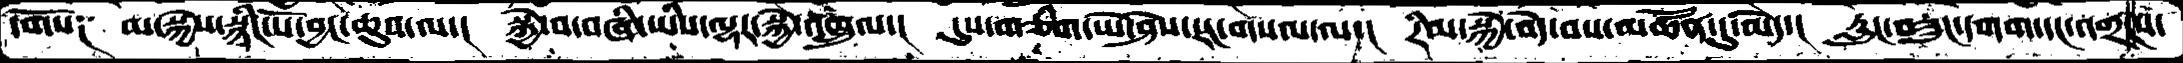དགོས༑   མ་སྐྱེས་སྙིང་པོ་བྱང་ཆུབ་ལ་།  སྐྱེ་བ་བཞི་ཡིས་ལྷར་སྐྱེ་འཁྲུལ་།  དུས་གཅིག་ཡེ་ཤེས་རང་གསལ་ལ་།  རིམ་སྐྱེ་བདེ་བས་མཚོན་དུ་མེད་།  རླུང་བཟུང་དགག་དང་འགྲངས་
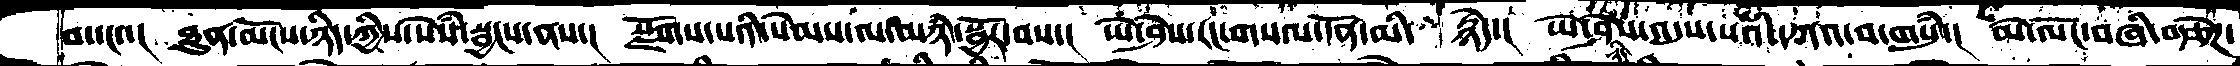བ་དང་་།   ཐུན་མོངས་ཉིད་ཀྱིས་སེཾས་སྦྱངས་ནས་།   སྫོགས་པའི་སེམས་ལ་མཉཾ་སྦྱོར་བས་།  ཡེ་ཤེས་རང་གསལ་དོན་མི་རྙེད་།  ཡེ་ཤེས་འདུས་པའི་དཀའ་བ་གསུཾ་།  མེ་ལོང་བཞི་བརྩེཌ་
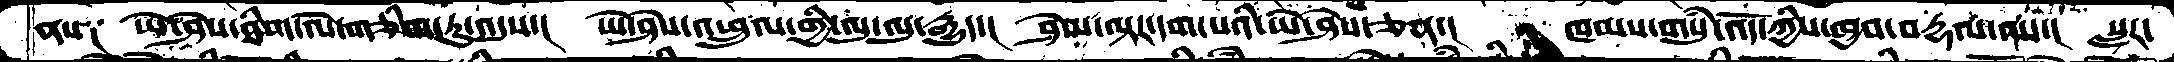ནས༑   ཡེ་ཤེས་ཐིག་ལེ་གཅིག་ཏུ་འདུས་།  ཡེ་ཤེས་འཕྲུལ་གྱི་ལུ་ལུ་རྒྱུད་།  ཤེལ་ལྟར་དག་པའི་ཡེ་ཤེས་ཅན་།  ཁམས་གསུཾ་འོད་ཀྱིས་ཁྱབ་བརྡལ་ནས་།  སླར་
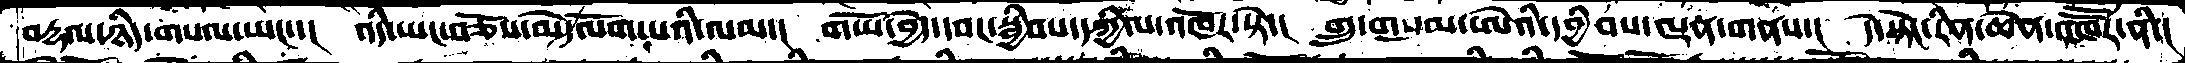བརྡལ་ཉིད་གསལ་ཡང་་།  འདི་ཡང་བཅོས་མེད་ལོག་པའི་ལམ་།  གཡོ་བྱེད་དབང་སྦྱིབས་དཀྱིལ་འཁོར་སྟེ་།  གྲུ་གསུམ་ཨེའི་དབྱིབས་ལྡན་གནས་།  དེ་སྟེང་རིན་ཆེན་འཁཽར་ནི་།
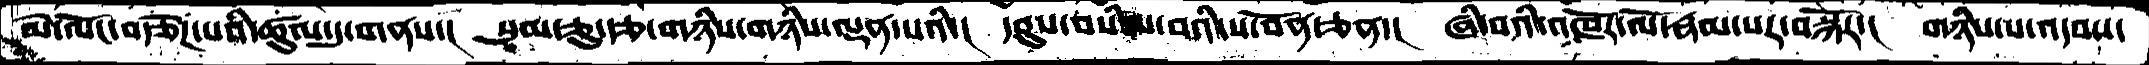མེ་ལོང་བརྩེཌ་པའི་ཚུལ་དུ་གནས་།  སུམ་ཅུ་རྩ་གཉིས་གཉིས་ལྡན་པའི་།   དབུས་བསིལ་བའི་ས་བོན་ཅན་།  ཞི་བའི་འཁོར་ལོ་རྣམ་པར་བསྐོར་།  གཉིས་པ་འདབས་
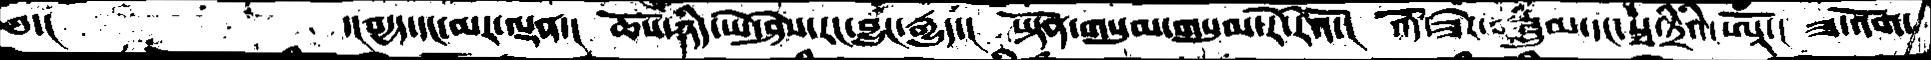༅་།            ་།བདྱད་དང་མར་ལྡན་།   ཆོས་ཉིད་ཡེ་ཤེས་རང་བྱུང་རྒྱུད་།  ཡྟོན་གསུམ་གསུམ་རེ་རེའོ་།  འོད་ཟེར་བཟླུམ་དང་སྭ་ཏྲིའི་ཨཱོཾ་།  ཟ་འོག་
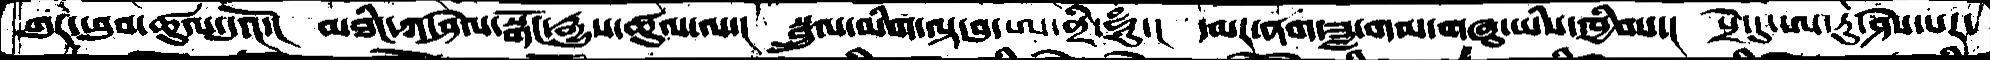གུར་ཕུབ་ཚུལ་དུའོ་།   མཐིང་ཀ་ཤེལ་སྒོང་རྒྱུས་ཚུལ་ལ་།  སྦྲུལ་མིག་ལྟ་བུ་ཨ་ནྲི་ཧཱུཾ་།   དམར་ནག་ཟླ་གམ་གཞུ་ཡིས་དབྱིབས་།  པྲེ་དུ་ཨ་རུ་ཤེས་པར་
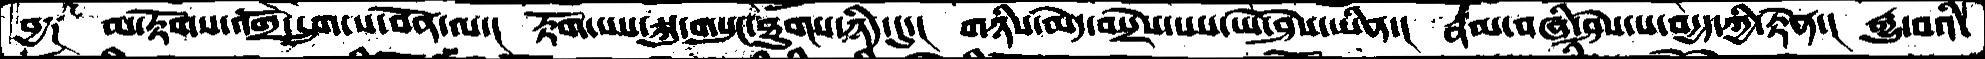བྱ༑   མ་རྟོགས་འགྲོ་དྲུག་ས་བོན་ལ་།  རྟོག་པས་སྐུ་གསུང་ཐུགས་ཉིད་དུ་།  གཉིས་མེད་བསྲེས་པས་ཡེ་ཤེས་ཡིན་།  རྣམ་བཞི་ཤེས་པ་བདྱད་ཀྱི་རྟེན་།  རྒྱུ་བའི་
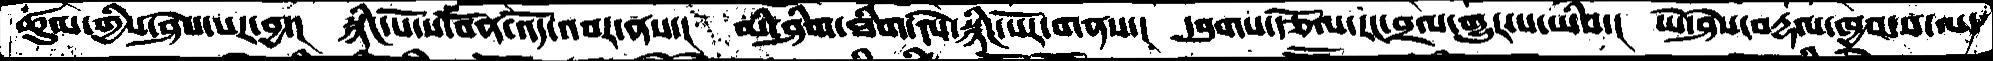ཚུལ་གྱིས་ཤེས་པར་བྱ་།  སྙིང་པོ་ས་བོན་འོད་འབར་ནས་།  མི་ཤིག་ཐིག་ལེ་སྙིང་པོར་གནས་།  དབུགས་རྩོལ་རང་བྲལ་གྱུར་པ་ཡིས་།  ཡེ་ཤེས་བརྡལ་ཁྱབ་པ་ལ་
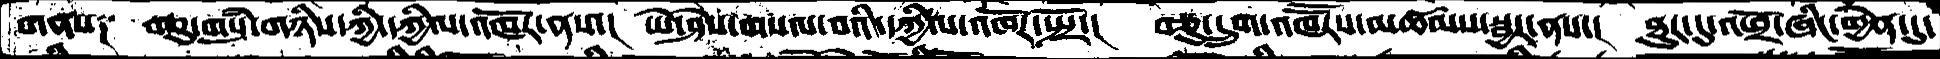གནས༑   བཅུ་གསུཾ་གཉིས་ཀྱི་དཀྱིལ་འཁོར་ནས་།  ཡེ་ཤེས་གསལ་བའི་དཀྱིལ་འཁོར་སྤྲོ་།   བཅུ་དྲུག་འཁཽརས་མཚམས་སྦྱར་ནས་།  ཐུར་དུ་འཕྲོ་ཞིང་གྱེན་དུ་
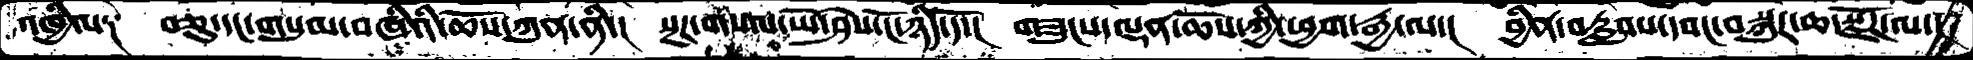འཁྱིལ༑   བཅུ་དང་གསུམ་བཞིའི་ཆོས་ཀུན་ནི་།  སྔཌ་གསལ་ཡེ་ཤེས་ངོ་ཉིད་དོ་།  གཟུངས་ལྡན་ཆོས་ཀྱི་ཕྱག་རྒྱ་ལ་།  བྱིན་བརླབས་དབང་བསྐུར་ཆ་སྫོཌ་ལ་།
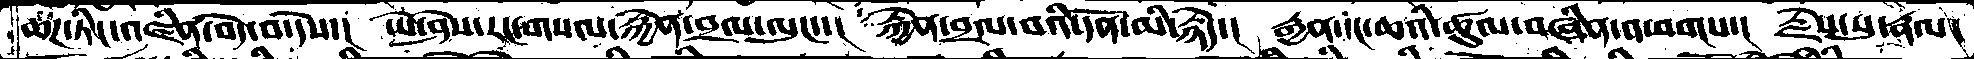ཆཌ་ཏིང་འཛིན་བདེ་བ་དེས་།   ཡེ་ཤེས་རང་གསལ་རྐྱེན་བྲལ་ལུང་།  རྐྱེན་བྲལ་བའི་དོན་མི་རྙེད་།  རྒྱན་དང་ཆའི་ཚུལ་བཞིན་འཕགས་།  རྗེས་སུ་རྣལ་
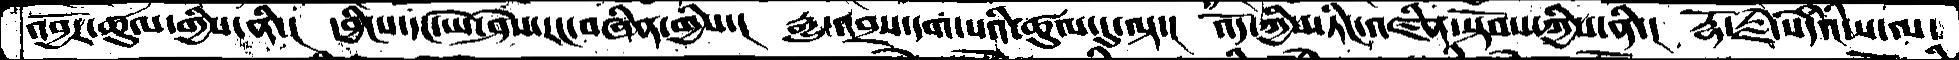འབྱོར་ཚུལ་གྱིས་ནི་།   དབྱིངས་དང་ཡེ་ཤེས་རང་བཞིན་གྱིས་།  རྒྱུ་འབྲས་དག་པའི་ཚུལ་དུ་ལྟ་།  འོད་ཀྱིས་ཏིང་འཛིན་སྟོབས་ཀྱིས་ནི་།  རྡོ་རྗེ་སེདཾའི་ས་ལ་
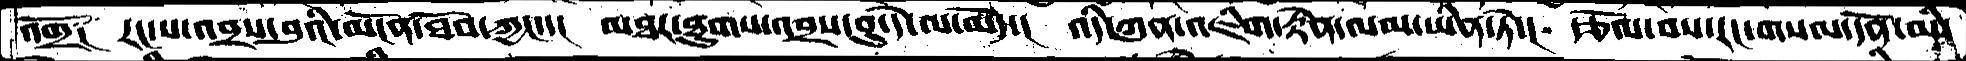འགྲོ༑  རང་ས་འབྲས་བུའི་མངོན་ཐོབ་ཀྱང་་།   མཐར་ཐུགས་འབྲས་བུ་དེ་ལ་མེད་།  འདི་ཀུན་འཇིག་རྟེན་ལམ་ཡིན་ཏེ་།  རྩོལ་བས་རང་གསལ་དོན་མི་
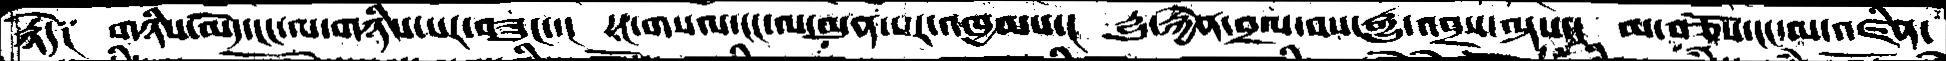རྙེད༑   གཉིས་མེད་ངང་ལ་གཉིས་པར་བཟུང་་།  རང་གསལ་ངང་ལ་མུན་པར་འཁྱམས་།  དྱུ་རྐྱེན་བྲལ་བས་རྒྱུ་འབྲས་ལྟས་།  མ་བཅོས་ངང་ལ་འཛིན་
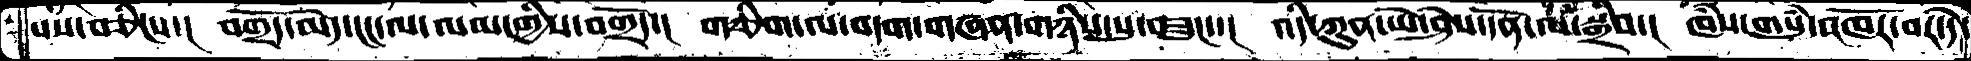པས་བཅིངས་།  བགྲོད་མེད་ངང་ལ་ལམ་གྱིས་བགྲོད་།   གཅིག་ལ་བདག་གཞན་གཉིས་སུ་བཟུང་་།  འདི་ཀུན་ཡེ་ཤེས་དོན་ལ་སྒྲིབ་།  ཁཾས་གསུཾ་འཁོར་བར་དེ་
